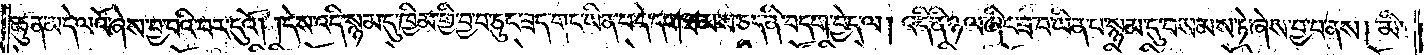ཆུན་མ་དེ་ལའོ་ཞེས་བྱ་བའི་བར་དུའོ། །དེས་འདི་སྙམ་དུ་ཁྱིམ་གྱི་བྱ་བ་ཅུང་ཟད་གང་ཡིན་པ་དེ་དག་ཐམས་ཅད་ནི་བདག་བྱེད་ལ། འདི་ནི་ཉལ་ཞིང་ཟ་བ་ཡིན་པ་སྙམ་དུ་བསམས་ཏེ་ཞེས་བྱ་བ་ནས། མི་
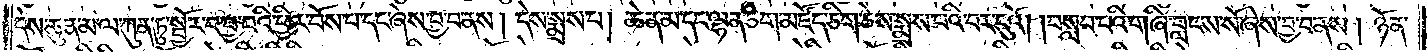དེས་ཆུན་མ་ལ་ཀུན་ཏུ་སྦྱོར་བ་བྱ་བའི་ཕྱིར་བོས་པ་དང་ཞེས་བྱ་བ་ནས། དེས་སྨྲས་པ། ཆེན་མ་དང་ལྷན་ཅིག་མཛོད་ཅིག་ཅེས་སྨྲས་པའི་བར་དུའོ། །བསླབ་པའི་གཞི་བླངས་སོ་ཞེས་བྱ་བ་ནས། ཉོན་
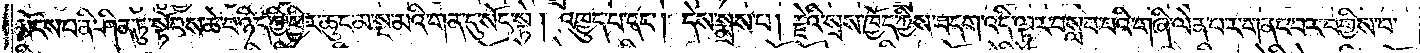མོངས་པ་ནི་ཤིན་ཏུ་སྟོབས་ཆེ་བ་ཉིད་ཀྱི་ཕྱིར་ཆུང་མ་སྔ་མའི་གན་དུ་སོང་སྟེ། འཁྱུད་པ་དང༌། དེས་སྨྲས་པ། རྗེའི་སྲས་ཁྱོད་ཀྱིས་བདག་འདི་ལྟར་བསླབ་པའི་གཞི་ལེན་པར་གནང་བར་བགྱིས་པ་
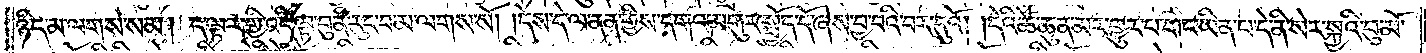ཉིད་མ་ལགས་སམ། ད་ལྟར་གྱི་འདི་ལྟ་བུ་ནི་རུང་བ་མ་ལགས་སོ། །དེས་དེ་ལ་ནན་གྱིས་དགའ་མགུར་སྤྱོད་དོ་ཞེས་བྱ་བའི་བར་དུའོ། །དེའི་ཚེ་ཆུན་མར་གྱུར་པ་གང་ཡིན་པ་དེ་ནི་སེར་སྐྱའི་བུ་མོ་
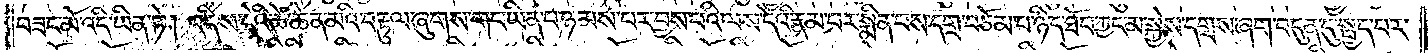བཟང་མོ་འདི་ཡིན་ཏེ། འདིས་དེའི་ཚེ་ཆེན་མའི་བརྟུལ་ཞུགས་གང་ཡིན་པ་ཉམས་པར་བྱས་པའི་ལས་དེའི་རྣམ་པར་སྨིན་པས་དགྲ་བཅོམ་པ་ཉིད་ཐོབ་ཀྱང་མ་སྐྱེས་དགྲས་ཞག་བདུན་དུ་སྤྱད་པར་
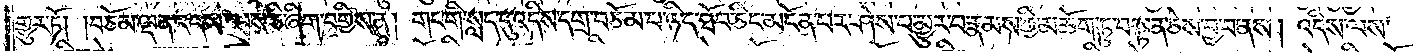གྱུར་ཏོ། །བཅོམ་ལྡན་འདས་ལས་ཅི་ཞིག་བགྱིས་ན། གང་གི་སླད་དུ་འདིས་དགྲ་བཅོམ་པ་ཉིད་ཐོབ་ཅིང་མངོན་པར་ཤེས་པ་མྱུར་བ་རྣམས་ཀྱི་མཆོག་ཏུ་བསྟན་ཅེས་བྱ་བ་ནས། འདིས་ལས་
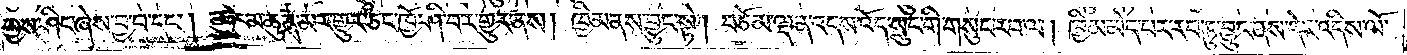བྱས་ཤིང་ཞེས་བྱ་བ་དང༌། ཆུང་མ་ཆུན་མར་གྱུར་ཅིང་ཁྱོ་ཤི་བར་གྱུར་ནས། ཁྱིམ་ནས་བྱུང་སྟེ། བཅོམ་ལྡན་འདས་འོད་སྲུང་གི་གསུང་རབ་ལ། ཁྱིམ་མེད་པར་རབ་ཏུ་བྱུང་ནས་དེར་འདིས་ལོ་
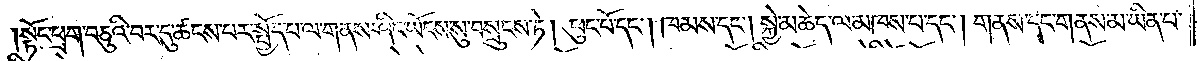སྟོང་ཕྲག་བཅུའི་བར་དུ་ཚངས་པར་སྤྱོད་པ་ལ་གནས་ཤིང་ཡོངས་སུ་བསྲུངས་ཏེ། ཕུང་པོ་དང༌། ཁམས་དང༌། སྐྱེ་མཆེད་ལ་མཁས་པ་དང༌། གནས་དང་གནས་མ་ཡིན་པ་
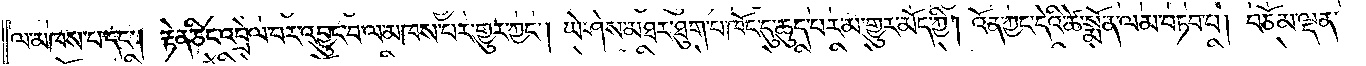ལ་མཁས་པ་དང༌། རྟེན་ཅིང་འབྲེལ་པར་འབྱུང་བ་ལ་མཁས་པར་གྱུར་ཀྱང༌། ཡེ་ཤེས་མཐར་ཐུག་པ་ཁོང་དུ་ཆུད་པར་མ་གྱུར་མོད་ཀྱི། འོན་ཀྱང་དེའི་ཚེ་སྨོན་ལམ་བཏབ་པ། བཅོམ་ལྡན་
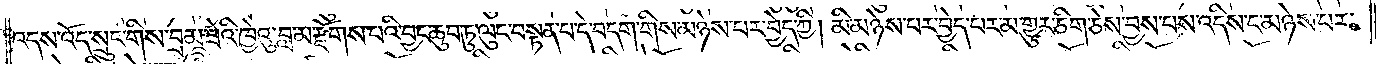འདས་འོད་སྲུང་གིས་བྲམ་ཟེའི་ཁྱེའུ་བླ་མ་རྫོགས་པའི་བྱང་ཆུབ་ཏུ་ལུང་བསྟན་པ་དེ་བདག་གིས་མཉེས་པར་བྱེད་ཀྱི། མི་མཉེས་པར་བྱེད་པར་མ་གྱུར་ཅིག་ཅེས་བྱས་པས་འདིས་ང་མཉེས་པར་
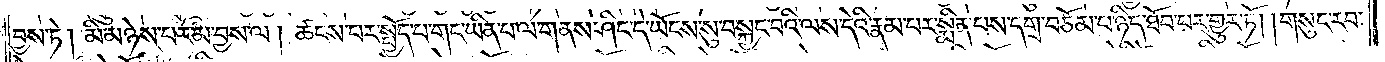བྱས་ཏེ། མི་མཉེས་པར་མ་བྱས་ལ། ཚངས་པར་སྤྱོད་པ་གང་ཡིན་པ་ལ་གནས་ཤིང་དེ་ཡོངས་སུ་བསྐྱང་བའི་ལས་དེའི་རྣམ་པར་སྨིན་པས་དགྲ་བཅོམ་པ་ཉིད་ཐོབ་པར་གྱུར་ཏོ། །གསུང་རབ་
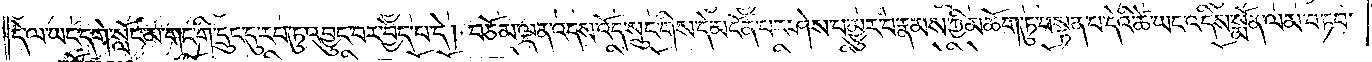དེ་ལ་ཡང་དགེ་སློང་མ་གང་གི་དྲུང་དུ་རབ་ཏུ་འབྱུང་བར་བྱེད་པ་དེ། བཅོམ་ལྡན་འདས་འོད་སྲུང་གིས་དེ་མངོན་པར་ཤེས་པ་མྱུར་བ་རྣམས་ཀྱི་མཆོག་ཏུ་བསྟན་པ་དེའི་ཚེ་ཡང་འདིས་སྨོན་ལམ་བཏབ་
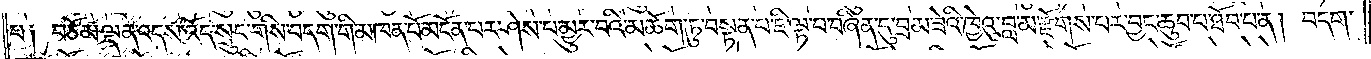པ། བཅོམ་ལྡན་འདས་འོད་སྲུང་གིས་བདག་གི་མཁན་པོ་མངོན་པར་ཤེས་པ་མྱུར་བའི་མཆོག་ཏུ་བསྟན་པ་ཇི་ལྟ་བ་བཞིན་དུ་བྲམ་ཟེའི་ཁྱེའུ་བླ་མ་རྫོགས་པར་བྱང་ཆུབ་པ་ཐོབ་པ་ན། བདག་
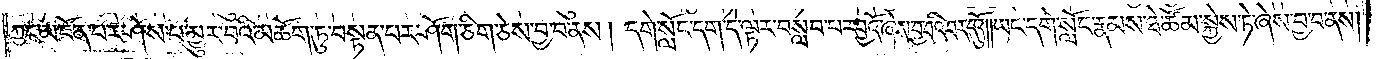ཀྱང་མངོན་པར་ཤེས་པ་མྱུར་བའི་མཆོག་ཏུ་བསྟན་པར་ཤོག་ཅིག་ཅེས་བྱ་བ་ནས། དགེ་སློང་དག་དེ་ལྟར་བསླབ་པར་བྱའོ་ཞེས་བྱ་བའི་བར་དུའོ། །ཡང་དགེ་སློང་རྣམས་ཐེ་ཚོམ་སྐྱེས་ཏེ་ཞེས་བྱ་བ་ནས།
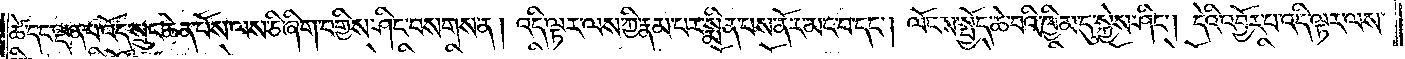ཚེ་དང་ལྡན་པ་འོད་སྲུང་ཆེན་པོས་ལས་ཅི་ཞིག་བགྱིས་ཤིང་བསགས་ན། འདི་ལྟར་ལས་ཀྱི་རྣམ་པར་སྨིན་པས་ནོར་མང་བ་དང༌། ལོངས་སྤྱོད་ཆེ་བའི་ཁྱིམ་དུ་སྐྱེས་ཤིང༌། དེའི་འབྱོར་པ་འདི་ལྟར་ལས་
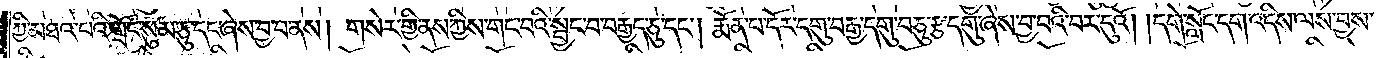ཀྱི་མཐའ་བའི་གྲོང་སུམ་ཅུ་དང་ཞེས་བྱ་བ་ནས། གསེར་གྱི་ནས་ཀྱིས་གང་བའི་སྦྱང་བ་བརྒྱད་ཅུ་དང༌། རྨོན་པ་དོར་དགུ་བརྒྱ་དགུ་བཅུ་རྩ་དགུ་ཞེས་བྱ་བའི་བར་དུའོ། །དགེ་སློང་དག་འདིས་ལས་བྱས་
